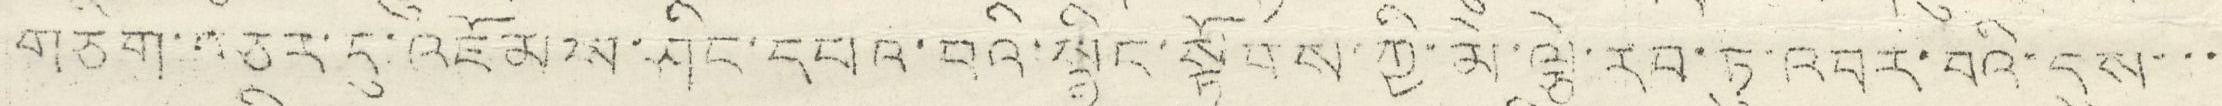གཅིག་བཅར་དུ་འཛོམས་ཤིང་དཔའ་བའི་སྙིང་སྟོབས་ཀྱི་མེ་ལྕེ་རབ་ཏུ་འབར་བའི་དུས་་་
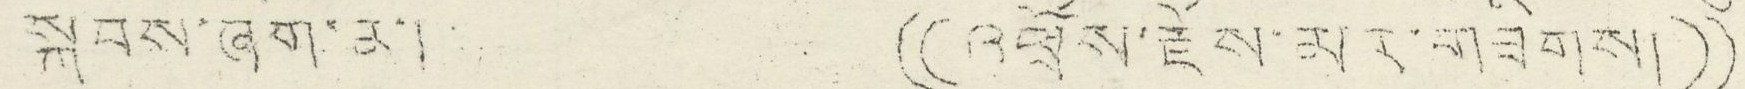སྐབས་ཞིག་ན་། (( འཕྲོས་རྫོས་མར་གཟིགས། ))
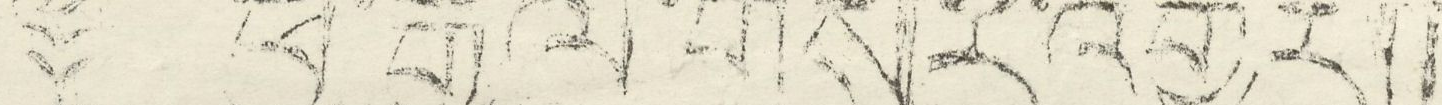༈ ཕྱི་རྒྱལ་གསར་འགྱུར།།
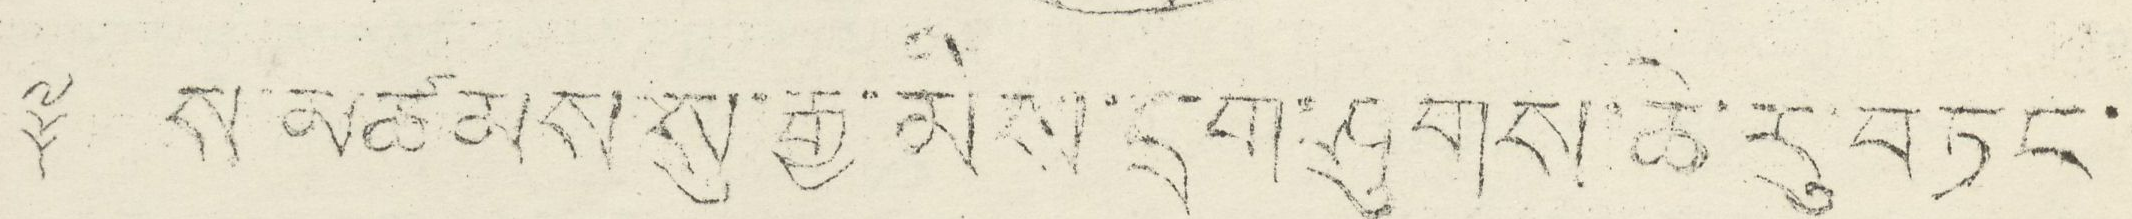༈ ས་མཚམས་སུ་རྒྱ་མིས་དྲག་ཤུགས་ཆེ་རུ་བཏང་
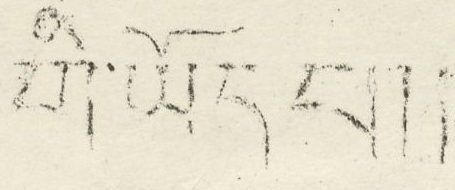གི་ཡོད པ།།
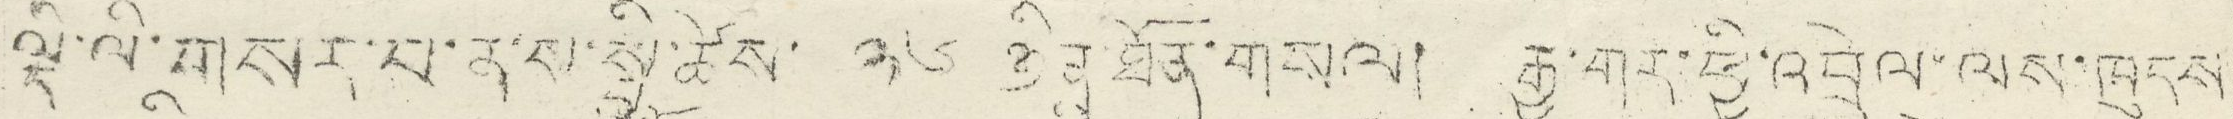ལྡི་ལི་གསར་ནས་སྤྱི་ཚེས་ ༢༦ ཉིན་ཐོག་གསལ། རྒྱ་གར་ཕྱི་འབྲེལ་ལས་ཁུངས
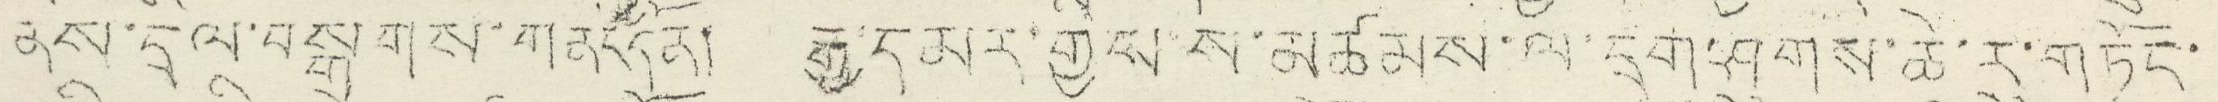ནས་དྲིལ་བསྒྲགས་གནང་དོན། རྒྱ་དམར་གྱིས་ས་མཚམས་ལ་དྲག་ཤུགས་ཆེ་རུ་གཏོང་
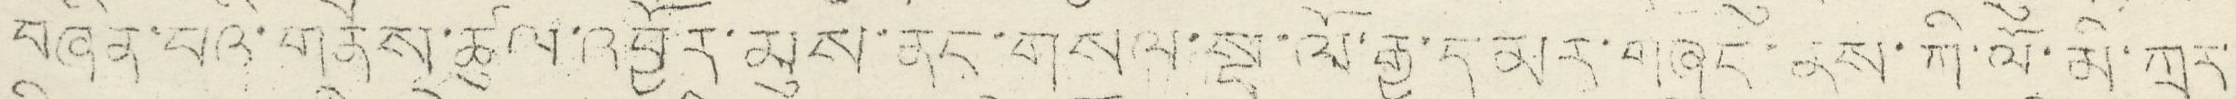བཞིན་པའི་གནས་ཚུལ་འབྱོར་མུས་ནང་གསལ་སྡ་ལོ་རྒྱ་དམར་གཞུང་ནས་ཀི་ལོ་མི་ཀྲར་
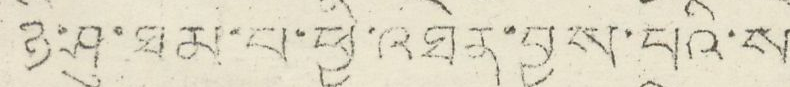ཉི་ཤུ་ཐམ་པ་ཕྱི་འཐེན་བྱས་པའི་ས
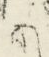ག
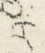ར་
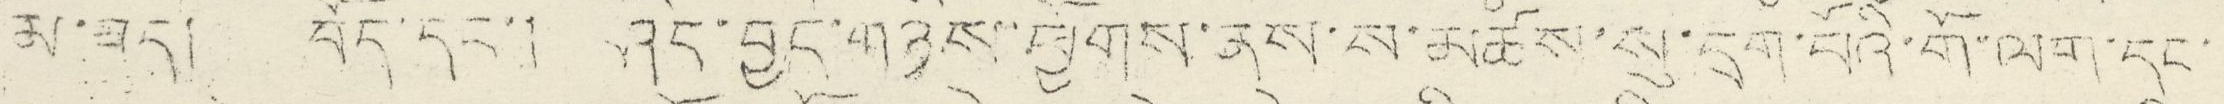མ་ཟད། བོད་དང་། ཤིང་བྱང་གཉིས་ཕྱོགས་ནས་ས་མཚཾས་སུ་དྲག་པོའི་གོ་ལག་དང་
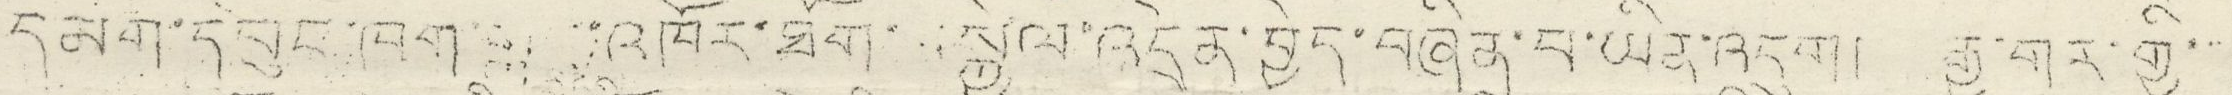དམག་དཔུང་ཁག་གླ ་འཁོར་ཐོག་ སྐྱེལ་འདྲེན་བྱེད་བཞིན་པ་ཡིན་འདུག། རྒྱ་གར་གྱི་་
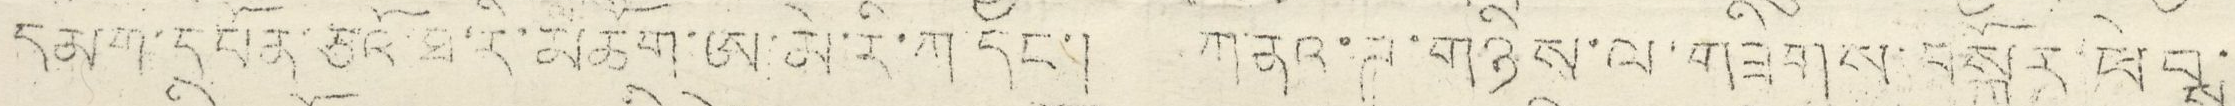དམག་དཔོན་ཅའོ་ཐ་རི་མཆོག་ཨ་མེ་རི་ཀ་དང་། ཀ་ནའ་ཊ་གཉིས་ལ་གཟིགས་བསྐོར་ཕེབས་
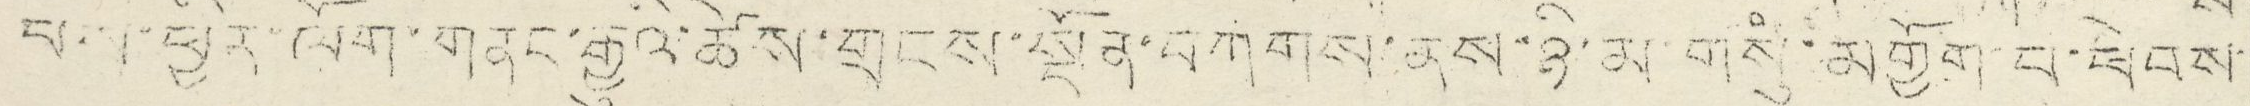པས་ཕྱིར་ལོག་གནང་རྒྱུའི་ཚེས་གྲངས་སྔོན་བཀགས་ནས་ཉི་མ་གསུཾ་མགྱོག པ་ཕེབས་
